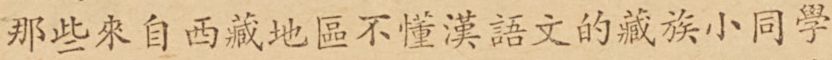那些來自西藏地區不懂漢語文的藏族小同學
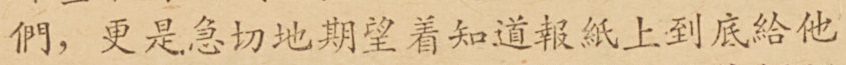們，更是急切地期望着知道報紙上到底給他
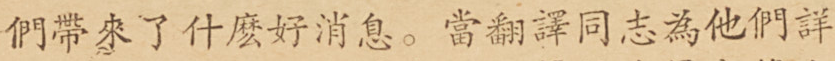們帶來了什麼好消息。當翻譯同志為他們詳
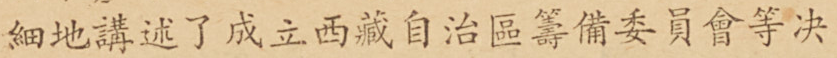細地講述了成立西藏自治區籌備委員會等決
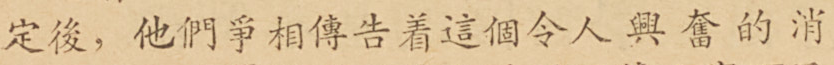定後，他們爭相傳告着這個令人興奮的消
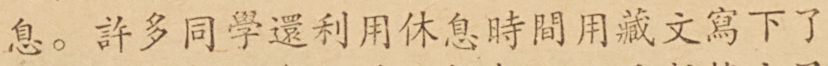息。許多同學還利用休息時間用藏文寫下了
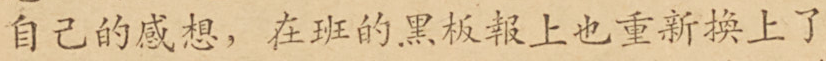自己的感想，在班的黑板報上也重新換上了
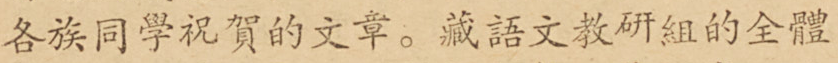各族同學祝賀的文章。藏語文教研組的全體
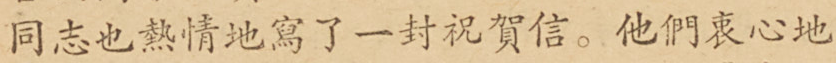同志也熱情地寫了一封祝賀信。他們衷心地
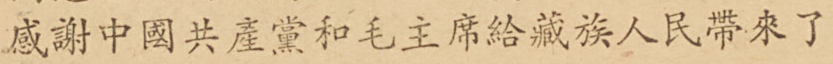感謝中國共產黨和毛主席給藏族人民帶來了
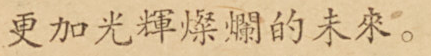更加光輝燦爛的未來。
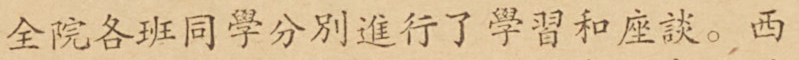全院各班同學分別進行了學習和座談。西
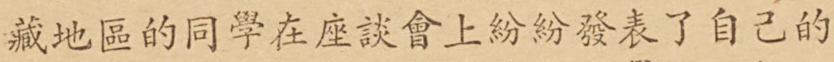藏地區的同學在座談會上紛紛發表了自己的
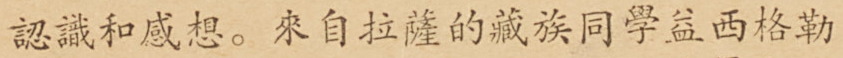認識和感想。來自拉薩的藏族同學益西格勒
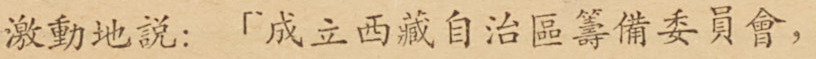激動地說：「成立西藏自治區籌備委員會，
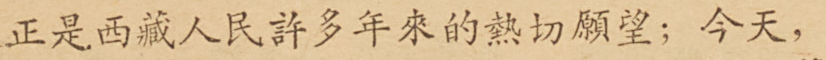正式西藏人民許多年來的熱切願望；今天，
